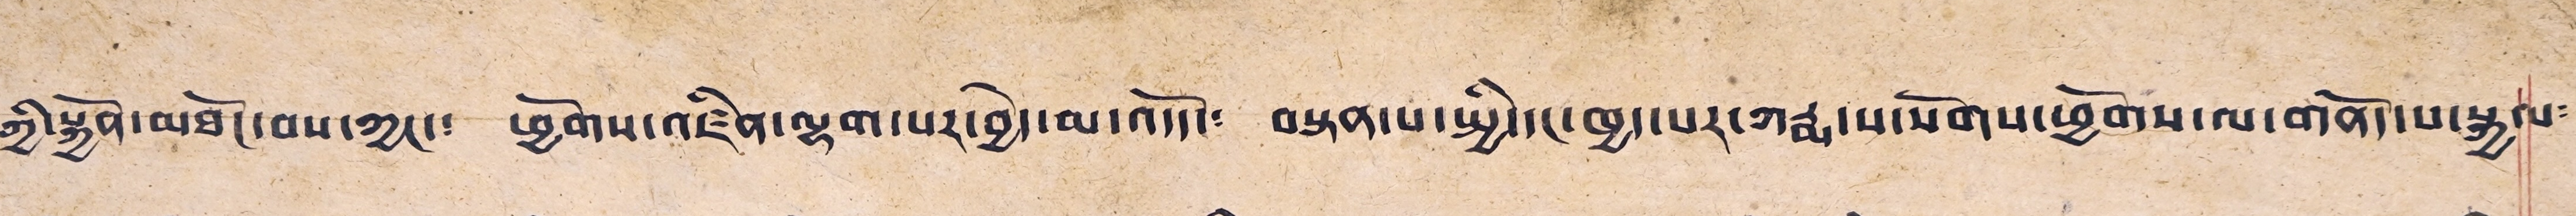ཀྱི་སྐྱོན་མཐོང་བས་ཀྱང་། ཕྱོགས་འཛིན་ལྷག་པར་བྱེད་མ་འདོད་། བསྟན་པ་སྤྱི་དང་ཁྱད་པར་ཀརྨ་པ་སོགས་ཕྱོགས་ལ་གནོད་པ་སྐྱལ་
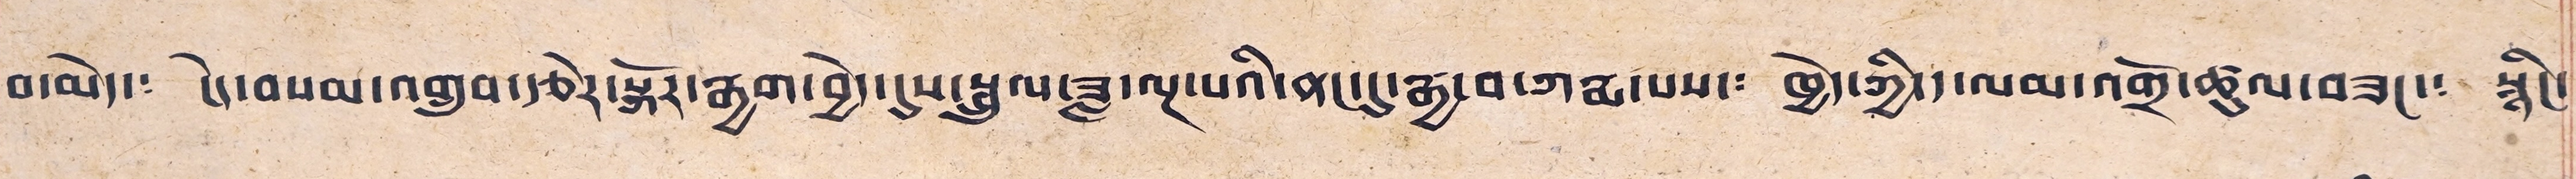བ་མེད་། ངེད་བསམ་འགྲུབ་རྩེར་སྐོར་རྒྱག་བྱེད་དུས་སྦྲུལ་ཟླ་ལྔ་པའི་ནང་དུ་རྒྱ་བ་ཀརྨ་པས་༴ ཁྱེད་ཀྱི་ད་ལམ་འགྲོ་ཚུལ་བཟང་། སྙིང་
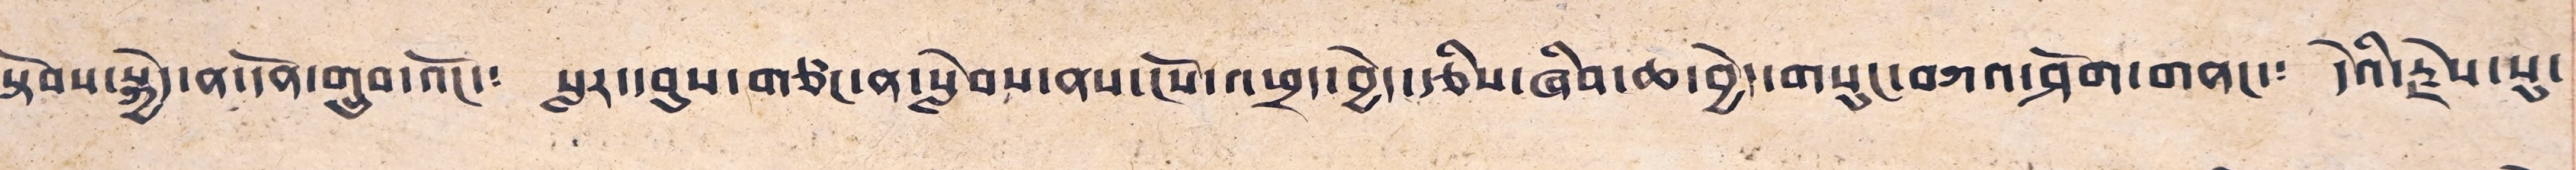སྟེབས་སྐྱེད་ན་དོན་གྲུབ་འོང་༴ སླར་དབུས་གཙང་ན་སླེབས་ནས་ངོས་འཕྲད་བྱེད་རྩིས་ཞིབ་ཆ་བྱེད་གསུང་བཀའ་ཤོག་གནང་༴ དེའི་རྗེས་སུ་
